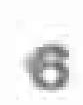6
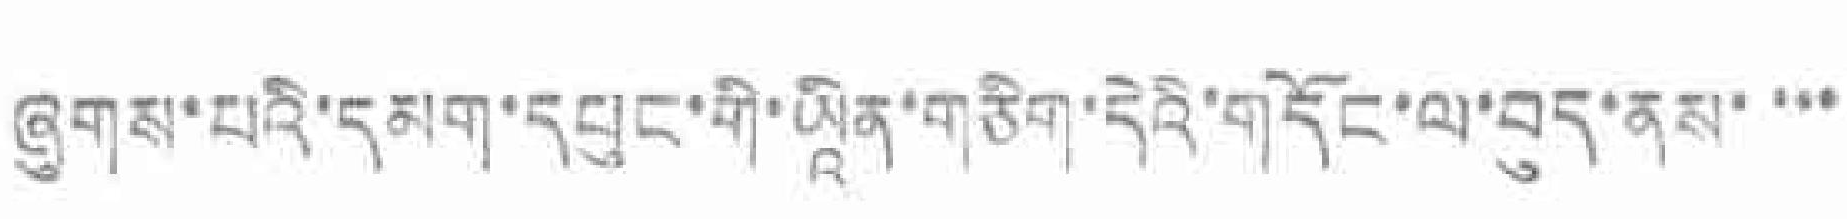ཞུགས་པའི་དམག་དཔུང་གི་ཡཱིན་གཅིག་དེའི་གདོང་ལ་བུད་ནས་་་་
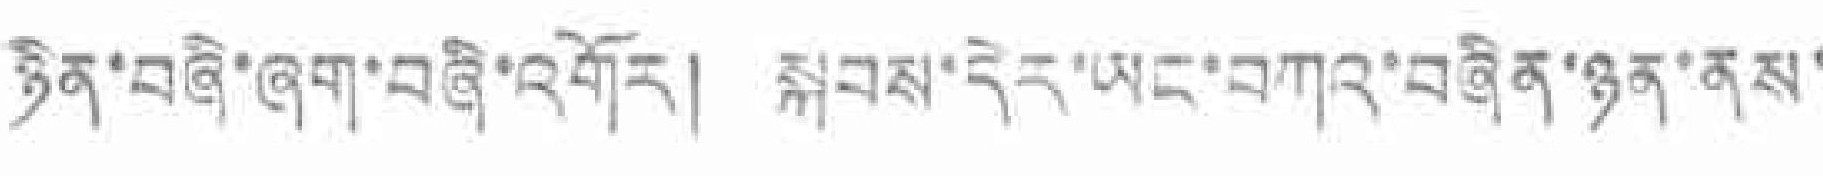ཉིན་བཞི་ཞག་བཞི་འགོར། སྐབས་དེར་ཡང་བཀའ་བཞིན་ཉན་ནས་
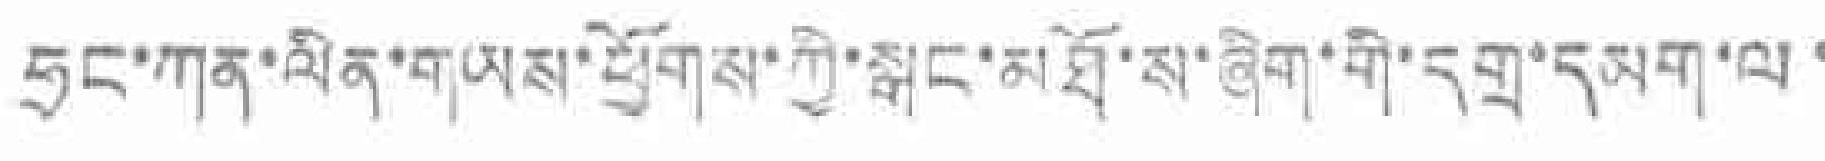ཧྲང་ཀན་ལིན་གཡས་ཕྱོགས་ཀྱི་སྒང་མཐོ་ས་ཞིག་གི་དགྲ་དམག་ལ་
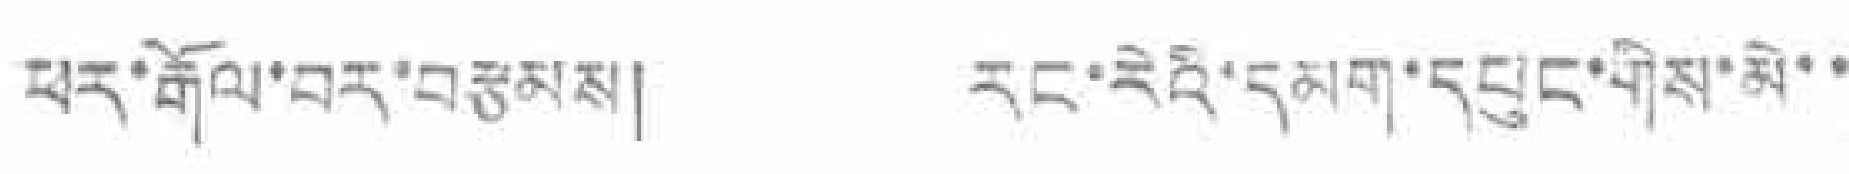ཕར་རྒོལ་བད་བརྩམས། རང་རེའི་དམག་དཔུང་གིས་མེ་་
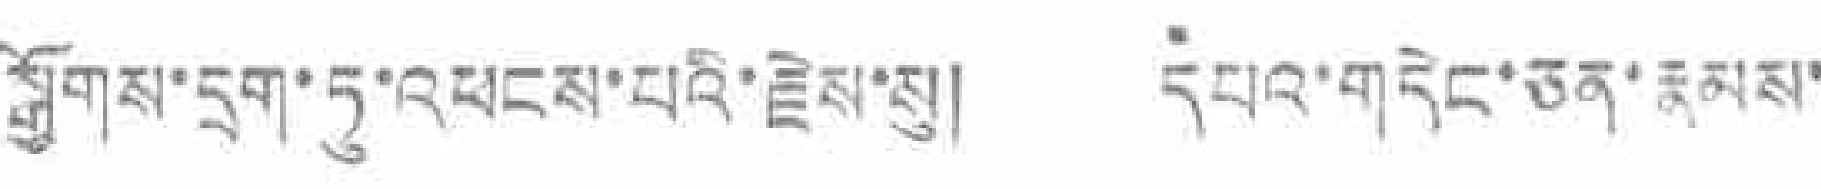སྒྱོགས་དྲག་ཏུ་འཕངས་པའི་རྗེས་སུ། དཔའ་གདེང་ཅན་རྣམས་
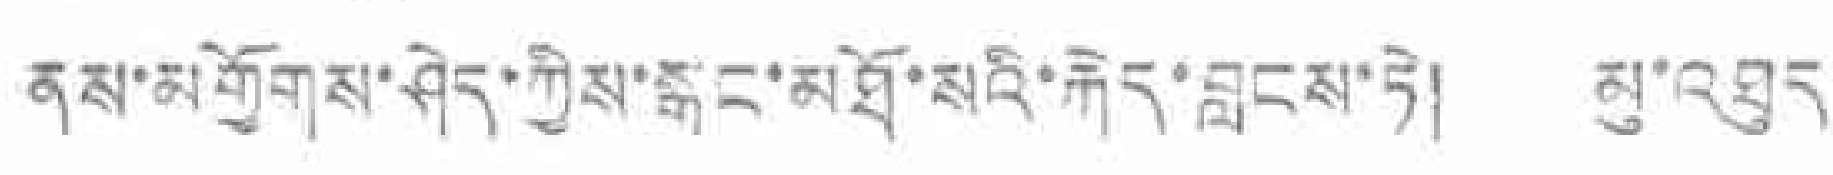ནས་མགྱོགས་ཤེད་ཀྱིས་རྒང་མཐོ་སའི་རྐེད་བླངས་ཏེ། མུ་འཐུད་
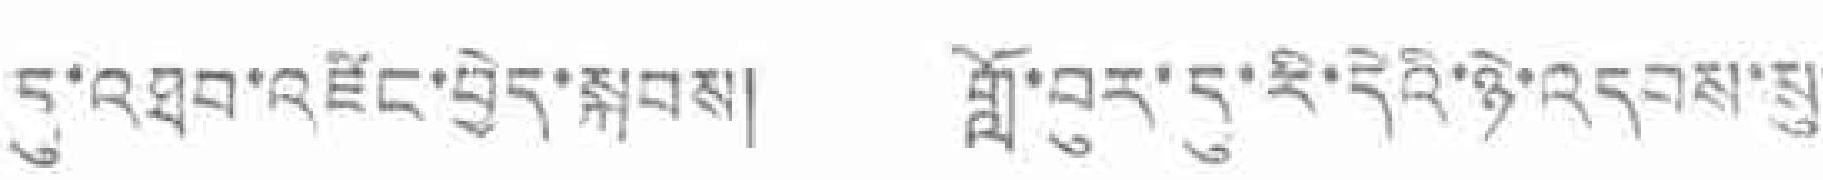དུ་འཐབ་འཛིང་བྱེད་སྐབས། གློ་བུར་དུ་རི་དེའི་ཉེ་འདབས་སུ་
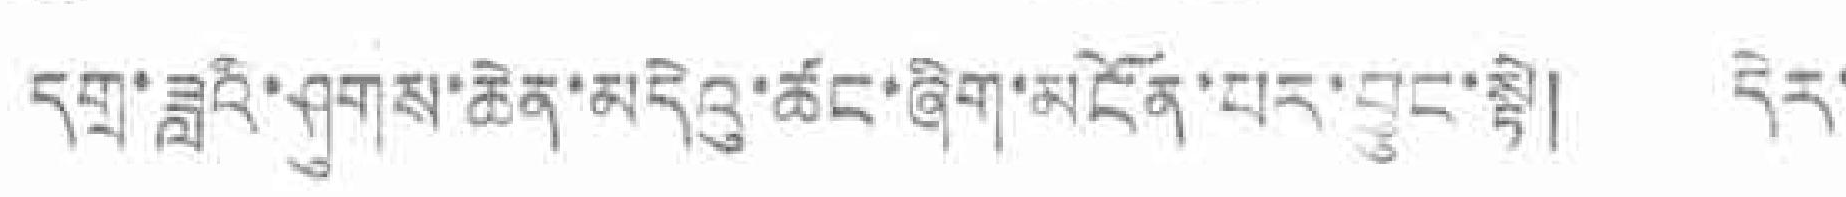དགྲ་ཟླའི་ཤུགས་ཆེན་མདེའུ་ཚང་ཞིག་མངོན་པར་བྱུང་སྟེ། དེར་
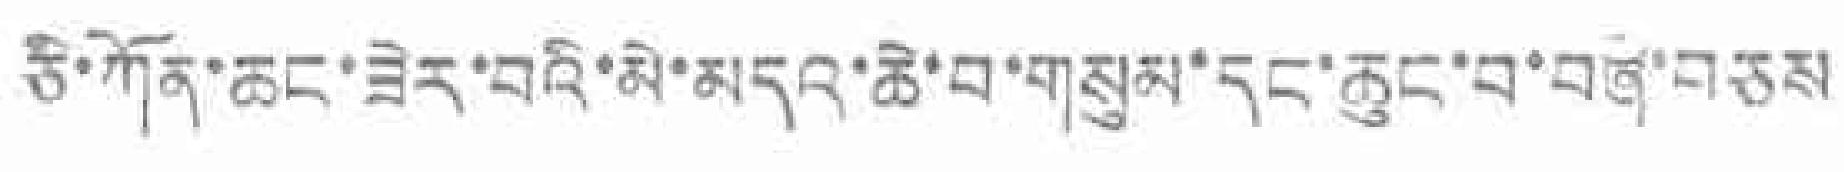ཅི་ཀོན་ཆང་ཟེད་བའི་མེ་མདའ་ཆེ་བ་གསུམ་དང་ཆུང་བ་བཞི་བཅས
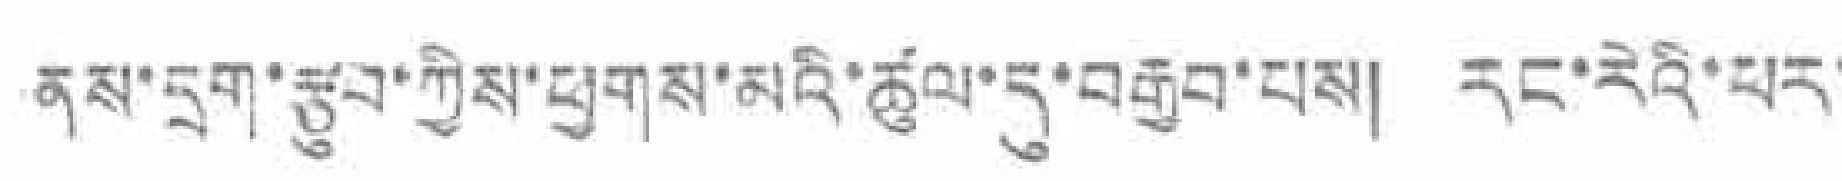ནས་དྲག་རྩུབ་ཀྱིས་ཕྱགས་མའི་ཚུལ་དུ་བརྒྱབ་པས། རང་རེའི་ཕར་
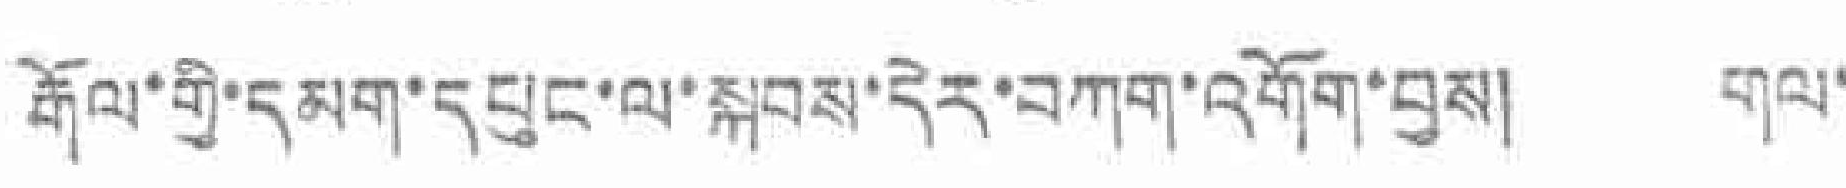རྒོལ་གྱི་དམག་དཔུང་ལ་སྐབས་དེར་བཀག་འགོག་བྱས། གལ་
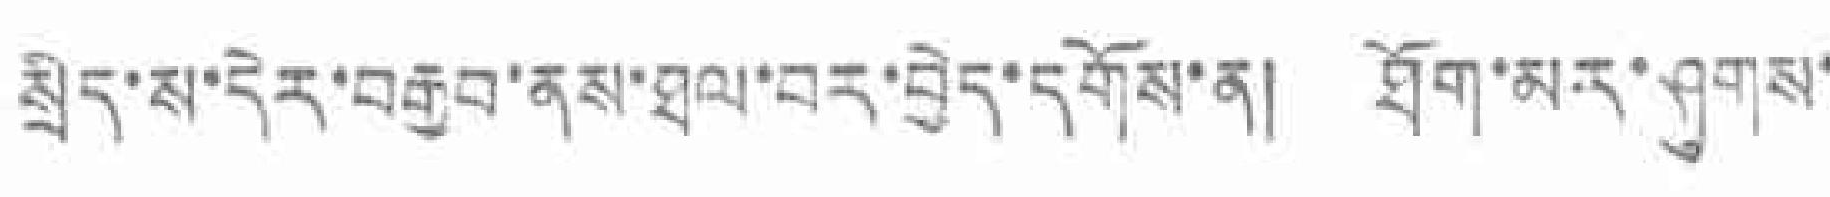སྲིད་ས་དེར་བརྒྱབ་ནས་ཐལ་བར་བྱེད་དགོས་ན། ཐོག་མར་ཤུགས་
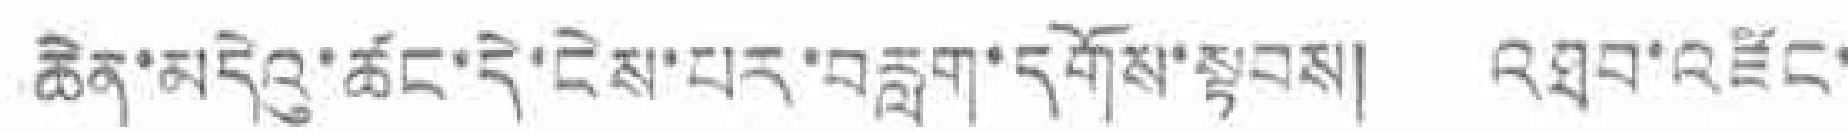ཆེན་མདེའུ་ཚང་དེ་ངེས་པར་བརླག་དགོས་སྟབས། འཐབ་འཛིང་
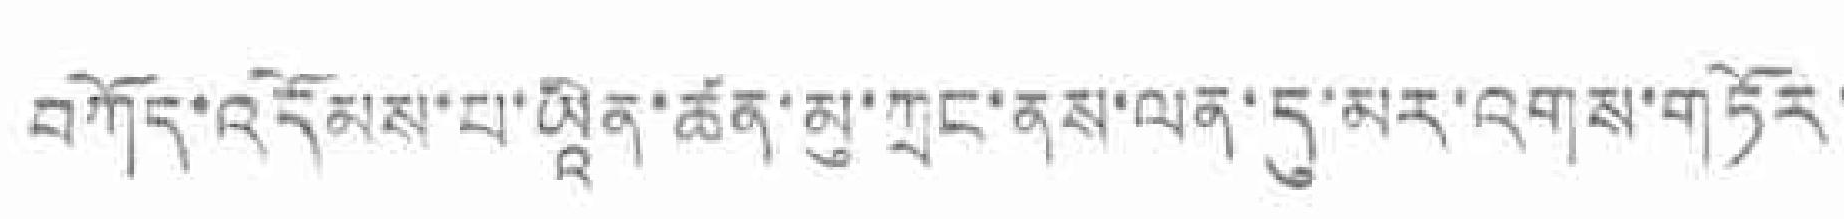བཀོད་འདོམས་པ་ཡཱིན་ཚན་མུ་ཀྲུང་ནས་ལན་དུ་མར་འགས་གཏོར་
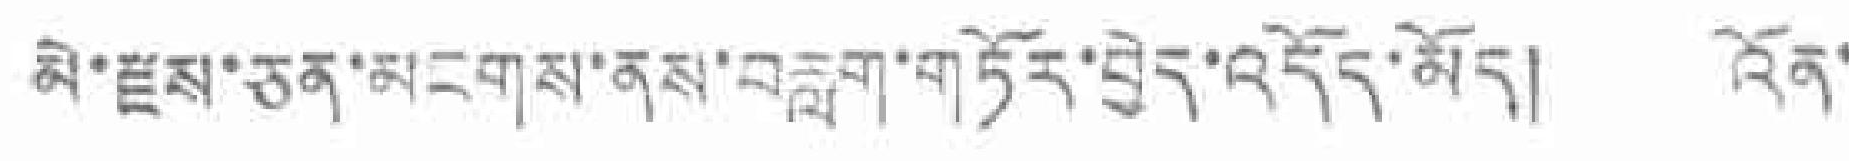མེ་རྫས་ཅུན་མངགས་ནས་བརླག་གཏོར་བྱེད་འདོད་མོད། འོན་
